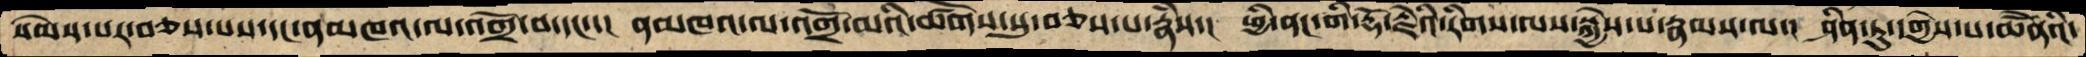སེམས་པར་བཅས་པས་དང་ནམཁའ་ལ་འགྲོ་བ་དང་་།  ནམཁའ་ལ་འགྲོ་མའི་ཚོགས་སུ་བཅས་པ་རྣཾས་། ཕྱི་ནང་གི་རྡོ་རྗེའི་རིགས་ལས་སྐྱེས་པ་རྣམས་ལ་།  ཤིན་ཏུ་དགྱེས་པ་ཆཻོའིོ་
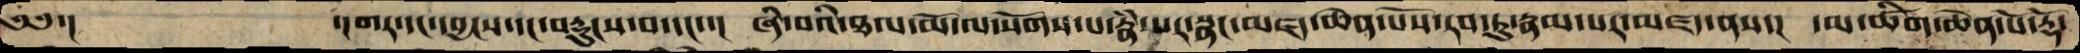༄༅་།       ་།གར་དང་དབྱངས་དང་བརྡུངས་བ་དང་་།  ཞི་བའི་ཐལ་མོ་ལ་སོགས་པ་རྣཾ་པར་སྣང་མཛད་ཆེན་པོས་རབ་ཏུ་རྣམ་པར་མཛད་ནས་།  དམ་ཚིག་ཆེན་པོ་རྡོ་
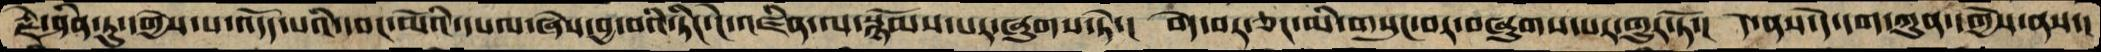རྗེ་ཤིན་ཏུ་དགྱེས་པ་འདོད་པའི་དབང་མོའི་དཔལ་ཞེས་བྱ་བའི་ཏིང་ངེ་འཛིན་ལ་སྙོམས་པར་ཞུགས་ཏེ་།  བདེ་བར་ཅང་མི་གསུང་བར་བཞུགས་པར་གྱུར་ཏོ་།  དེ་ནས་དེ་དག་ཀུན་དགྱེས་ནས་།
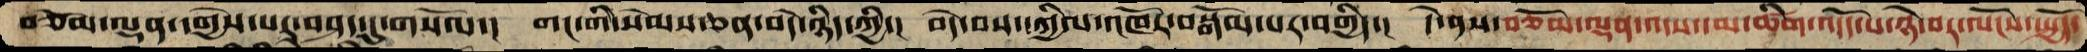བཅོམ་ལྡན་དགྱེས་པར་བཤད་དུ་གསོལ་།  གང་གི་སེམས་ཅན་བདེ་ཉིད་ཀྱི་།  བདེ་བས་དཀྱིལ་འཁོར་བསྒོམ་པར་བགྱིད་།  དེ་ནས་བཅོམ་ལྡན་འདས་དམ་ཚིག་འདོད་པ་ཉེ་བར་ལོངས་སྤྱོད་
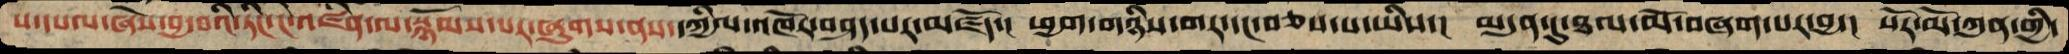ས་དཔལ་ཞེས་བྱ་བའི་ཏིང་ངེ་འཛིན་ལ་སྙོམས་པར་ཞུགས་ནས་དཀྱིལ་འཁོར་བཤད་པར་མཛོད་། ཕྱག་གཉིས་གར་དང་བཅས་པ་ཡིས་།  མདུན་དུ་ཐལ་མོ་བཞག་པར་བྱ་།  སོར་མོ་ཀུན་གྱི་
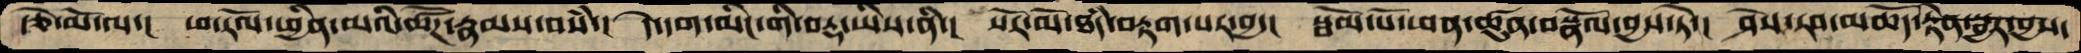རྩེ་མོ་ལ་།  ཕ་རོལ་ཕྱིན་མའི་ཚོཌ་རྣམས་བསཾ་།  དེ་དག་མིང་གི་བརྡ་ཡིས་ནི་།  སོར་མོ་ཐཾད་བརྟག་པར་བྱ་།  སྦོམ་པོ་ཕན་ཚུན་བསྣོལ་བྱས་ཏེ་།  ཤེས་རབ་མཆོད་རྟེན་སྦྱར་བྱས་
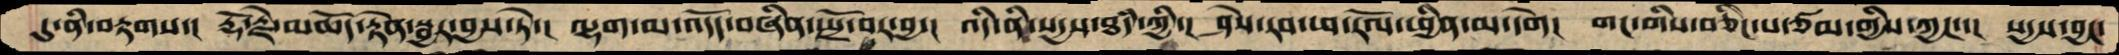དུ་ནི་བརྟགས་།  རྡོ་རྗེ་མཆོད་རྟེན་སྦྱར་བྱས་ཏེ་། ལྷག་པ་འདོད་བཞིན་སྤྲོ་བར་བྱ་།  འདི་ནི་སདྱས་ཐཾད་ཀྱི་།  ཤེས་རབ་ཕ་རོལ་ཕྱིན་མ་དགེ།  གང་གིས་བཅིང་པ་ཙམ་གྱིས་ཀྱང་་།  སདྱས་བྱང་
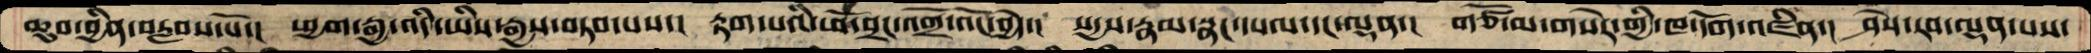ཆུབ་བྱིན་བརླབས་སོ་།  ཕྱག་རྒྱ་འདི་ཡིས་རྒྱས་བཏབ་པས་།  རྟག་པའི་ཕོ་བྲང་འགྲོ་འོང་བྱེད་།  སདྱས་རྣམ་སྣང་དཔལ་དང་ལྡན་།  གཙོ་མ་གསེར་གྱི་ཁ་དོག་འཛིན་།  ཤེས་རབ་ལྡན་པས་
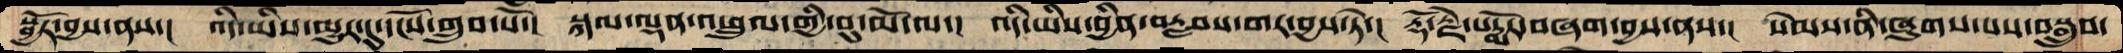སྦྱོར་བྱས་ནས་།  འདི་ཡིས་མྱུར་དུ་དངོས་གྲུབ་སོ་།  སྐལ་ལྡན་འཕྲུལ་གྱི་བུ་མོ་ལ་།  འདི་ཡིས་བྱིན་བརླབས་གར་བྱས་ཏེ་།  རྡོ་རྗེ་པདྨོར་བཞག་བྱས་ནས་།  སེམས་ནི་ཞུགས་པས་བསྒྲུབ་
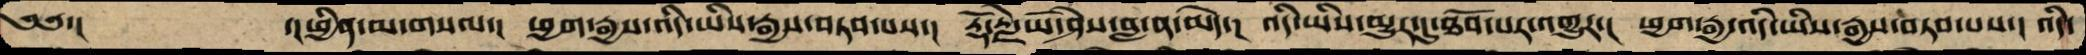༄༅་།       ་།ཕྱིན་མ་གསལ་།  ཕྱག་རྒྱས་འདི་ཡིས་རྒྱས་བཏབ་པས་།  རྡོ་རྗེ་ཡེ་ཤེས་བླ་ན་མེད་།  འདི་ཡིས་མྱུར་དུ་ཐོབ་པར་འགྱུར་།  ཕྱག་རྒྱ་འདི་ཡིས་རྒྱས་བཏབ་པས་།  འདི་
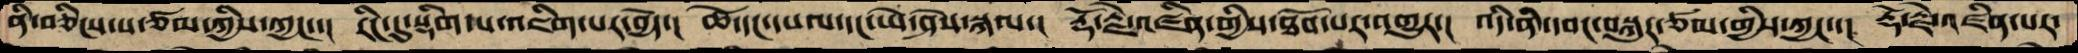ནི་བཅིངས་པ་ཙམ་གྱིས་ཀྱང་་།  རིང་དུ་སྡིག་པ་འཇིག་པར་བྱེད་།  ཚེ་དང་དཔལ་དང་ཡེ་ཤེས་སྐལ་།  རྡོ་རྗེ་འཛིན་གྱིས་ཐོབ་པར་འགྱུར་།  འདི་ནི་དབང་བསྐུར་ཙམ་གྱིས་ཀྱང་་།  རྡོ་རྗེ་འཛིན་པར་
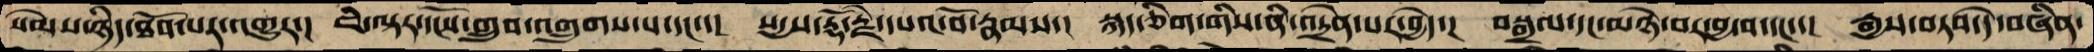སེམས་ཉིད་ཐོབ་པར་འགྱུར་།  ཇི་ལྟར་དངོས་གྲུབ་འགྲུགས་པ་དང་་།  སདྱས་རྡོ་རྗེ་དཔའ་བོ་རྣམས་།  སྐད་ཅིག་གིས་ནི་འདྲེན་པར་བྱེད་།  བསྒྲལ་དང་མཉེ་བར་བྱ་བ་དང་་།  རྒྱས་བཏབ་དེ་བཞིན་
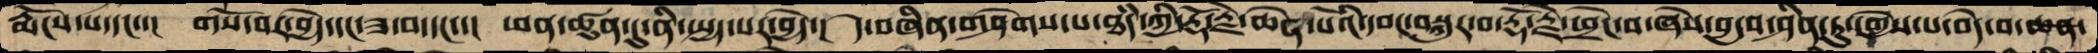རྨོངས་པ་དང་་།  གསོ་བར་བྱེད་དང་ཟ་བ་དང་་།  ཕན་ཚུན་དུ་ནི་སྤྱད་པར་བྱེད་།  དེ་བཞིན་གཤེགས་པ་ཐཾད་ཀྱི་རྡོ་རྗེ་ཆེན་པོའི་དབང་བསྐུར་བ་རྡོ་རྗེ་ཕྲེང་བ་ཞེས་བྱ་བ་ཤིན་ཏུ་དགྱེས་པ་བདེ་བ་ཆན་
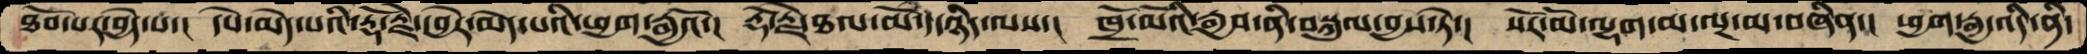ཐོབ་པར་བྱེད་པ་།  དསེ་མེད་པའི་རྡོ་རྗེ་དབྱེར་མེད་པའི་ཕྱག་རྒྱའོ་།  རྡོ་རྗེ་ཐལ་མོ་དེ་ཉིད་ལས་།  ཁྲོ་མོའི་རྒྱབ་ནི་བསྐུལ་བྱས་ཏེ་།  སོར་མོ་ལྷག་མ་ལྔ་མ་བཞིན་།  ཕྱག་རྒྱ་འདི་ནི་
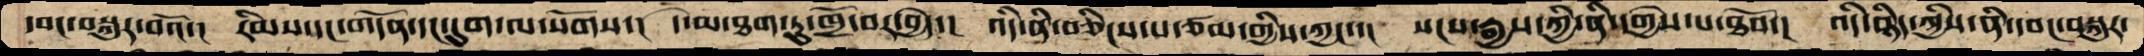དབང་བསྐུར་བའོ་།  རིམས་དང་གདོན་དང་དུག་ལ་སོགས་།  དེ་མ་ཐག་ཏུ་ཁྲོ་བར་བྱེད་།  འདི་ནི་བཅིངས་པ་ཙམ་གྱིས་ཀྱང་་།  སངས་རྒྱས་ཀྱི་ནི་དགྱེས་པ་ཐོབ་།  འདི་ཉིད་ཀྱིས་ནི་དབང་བསྐུར་
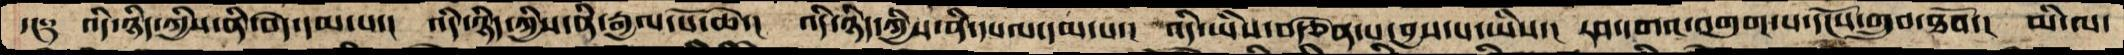དང༑  འདི་ཉིད་ཀྱིས་ནི་བདེ་དམ་པ་།  འདི་ཉིད་ཀྱིས་ནི་རྒྱལ་པོ་ཆེ་།  འདི་ཉིད་ཀྱིས་ནི་དཔལ་དམ་པ་།  འདི་ཡིས་བརྩེན་པ་བྱས་པ་ཡིས་།  རབ་དགའ་འགུག་པ་དངོས་གྲུབ་ཐོབ་།  མི་ལ་
